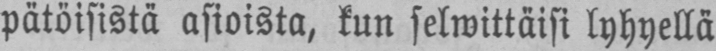pätöisistä asioista, kun selwittäisi lyhyellä
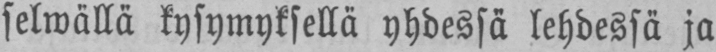selwällä kysymyksellä yhdessä lehdessä ja
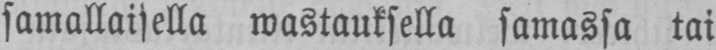samallaisella wastauksella samassa tai
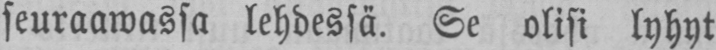seuraawassa lehdessä. Se olisi lyhyt
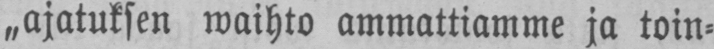„ajatuksen waihto ammattiamme ja toin-
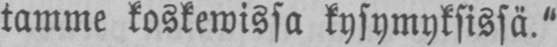tamme koskewissa kysymyksissä."
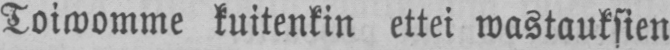Toiwomme kuitenkin ettei wastauksien
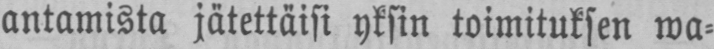antamista jätettäisi yksin toimituksen wa-
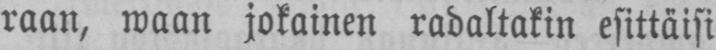raan, waan jokainen radaltakin esittäisi
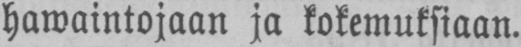hawaintojaan ja kokemuksiaan.
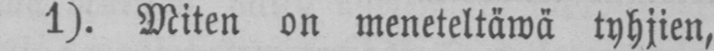1). Miten on meneteltäwä tyhjien,
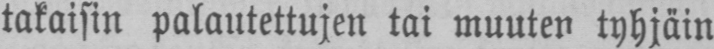takaisin palautettujen tai muuten tyhjäin
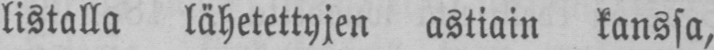listalla lähetettyjen astioin kanssa,
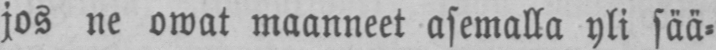jos ne owat maanneet asemalla yli sää-
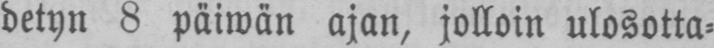detyn 8 päiwän ajan, jolloin ulosotta-
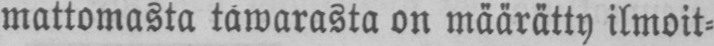mattomasta tawarasta on määrätty ilmoit-
